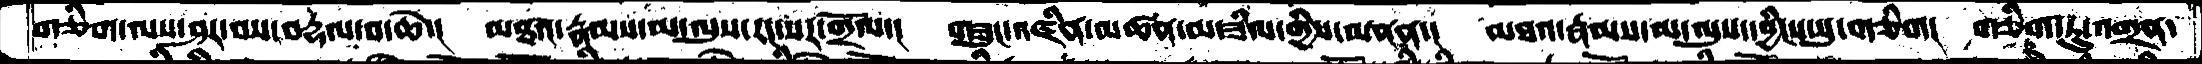གཅིག་ལས་ཤར་བས་བརྡལ་བ་ཆེ་།  མཐའ་རྣམས་མ་ལུས་རང་སར་གྲོལ་།  གཟུང་འཛིན་མཚན་མ་ཟིལ་གྱིས་མནན་།  མཐའ་རྣམས་མ་ལུས་དབྱིངས་སུ་གཅིག།  གཅིག་ཏུ་འགྲན་
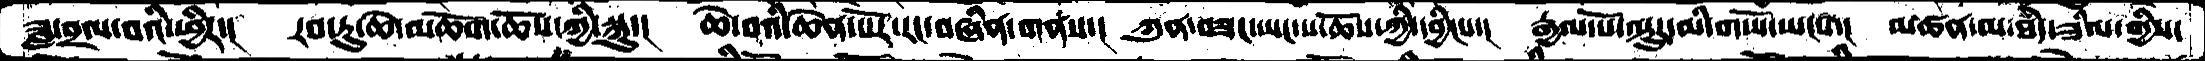ཟླ་བྲལ་བའི་ཕྱིར་།  རབ་ཏུ་ཆེ་མཆོག་ཆོས་ཀྱི་སྐུ་།  ཆེ་བའི་ཆེན་པོར་རང་བཞིན་གནས་།  ཀུན་བཟང་ཡང་པ་ཆོས་ཀྱི་དབྱིངས་།  རྒྱལ་པོ་ལྟུར་མི་གཡོ་ཡངས་།  མཚན་མ་ཐཾད་ཟིལ་གྱིས་
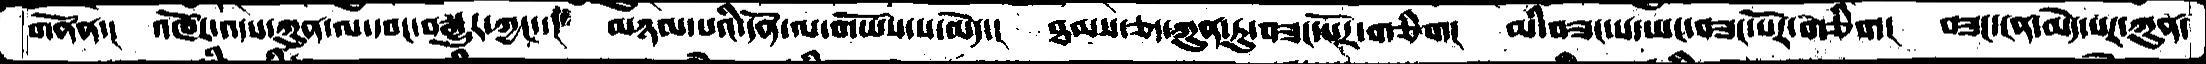གནོན་།  འཁོར་འདས་ཀུན་ལ་དབང་བསྒྱུར་ཀྱང་་།   མཉམ་པའི་དོན་ལ་གཡོས་པ་མེད་།  ཐམས་ཅད་ཀུན་ཏུ་བཟང་པོར་གཅིག།  མི་བཟང་ས་ཡང་བཟང་པོར་གཅིག།  བཟང་ངན་མེད་པར་ཀུན་
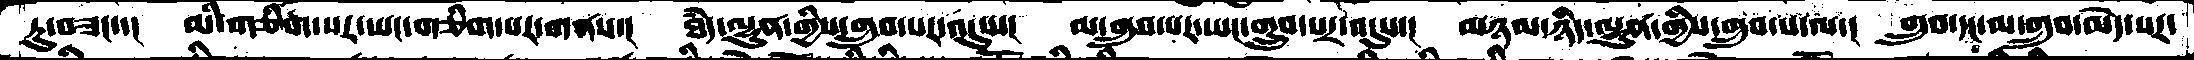ཏུ་བཟང་་།  མི་གཅིག་སར་ཡང་གཅིག་པར་གནས་།  ཐཾད་ལྷུན་གྱིས་གྲུབ་པར་འདུས་།  མ་གྲུབ་པར་ཡང་གྲུབ་པར་འདུས་།  མཉམ་ཉིད་ལྷུན་གྱིས་གྲུབ་པ་ལ་།  གྲུབ་དང་མ་གྲུབ་མེད་པར་
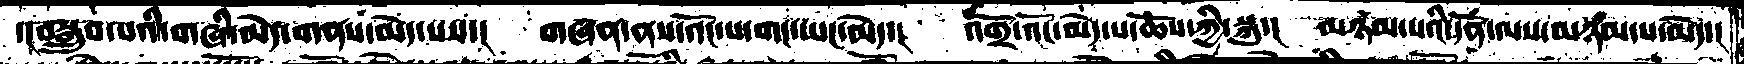་།བསྒྲུབ་པའི་གཞི་མེད་གནས་མེད་པས་།  གཞན་ནས་འོང་པ་གང་ཡང་མེད་།  འགྲོ་འོང་མེད་པ་ཆོས་ཀྱི་སྐུ་།  མཉམ་པའི་དོན་ལས་མཉམ་པ་མེད་།
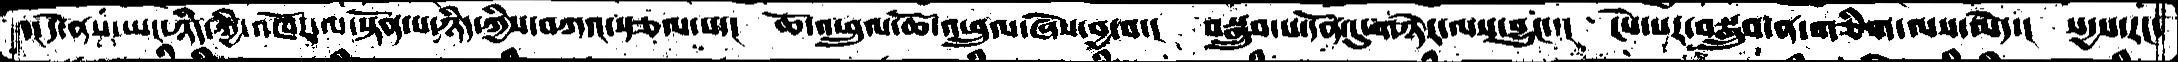་།དེ་ནས་ཡང་ཉིད་ཀྱི་འཁོར་ལ་སྟོན་པ་ཉིད་ཀྱིས་བཀའ་སྩལ་པ་།  ཆོ་འཕྲུལ་ཆོ་འཕྲུལ་ཞེས་བྱ་བ་།  བསྒྲུབ་པ་དོན་དུ་གཉེར་ལས་བྱུང་་།  ངེས་པར་བསྒྲུབ་ན་གཅིག་ལས་མེད་།  སདྱས་རང་
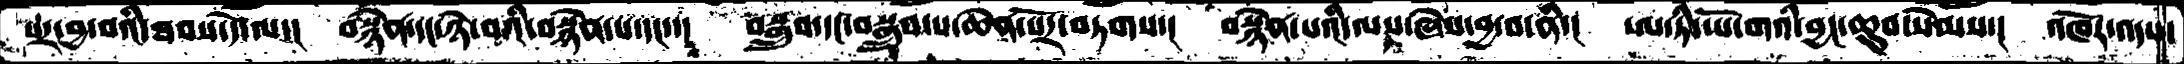པར་བྱ་བའི་ཐབས་དེ་ལ་།  བསྙེན་དང་ཉེ་བའི་བསྙེན་པ་དང་་།  བསྒྲུབ་དང་བསྒྲུབ་པ་ཆེན་པོར་བཏགས་།  བསྙེན་པའི་ལས་ཞེས་བྱ་བ་ནི་།  ཨ་ཏི་ཡོ་གའི་བྱང་ཆུབ་སེམས་།  འཁོར་འདས་
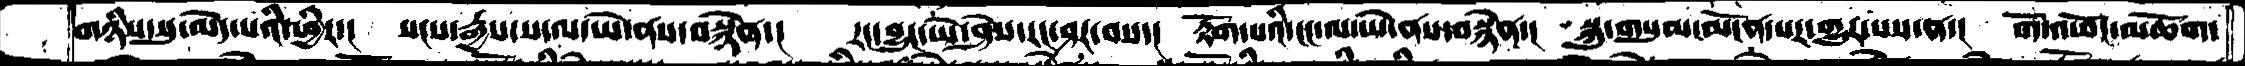གཉིས་སུ་མེད་པའི་ཕྱིར་།  སངས་རྒྱས་ས་ལ་ཡེ་ནས་བསྙེན་།  རང་བྱུང་ཡེ་ཤེས་རང་ཤར་བས་།  རྟོག་པའི་ངང་ལ་ཡེ་ནས་བསྙེན་།  སྐུ་གསུམ་མངོན་པར་གྱུར་པས་ན་།   གོ་འཕོང་མཆོག་
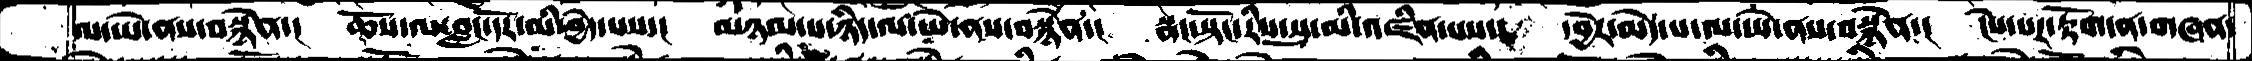ལ་ཡེ་ནས་བསྙེན་།  ཆོས་ལ་བླང་དོར་མི་བྱེད་པས་།  མཉམ་པ་ཉིད་ལ་ཡེ་ནས་བསྙེན་།  སྣང་སྟོང་རིས་སུ་མི་འཛིན་པས་།  དབྱེར་མེད་པ་ལ་ཡེ་ནས་བསྙེན་།  ངེས་པར་རྟོག་ན་གཞན་
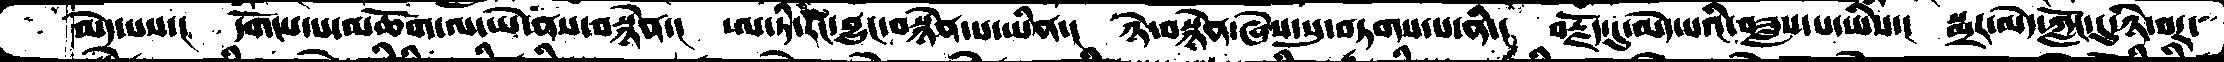མེད་པས་།  དགོངས་པ་མཆོག་ལ་ཡེ་ནས་བསྙེན་།   ཨ་ཏི་རང་བྱུང་བསྙེན་པ་ཡིན་།  ཉེ་བསྙེན་ཞེས་སུ་བཏགས་པ་ནི་།  བརྗོད་དུ་མེད་པའི་བཟླས་པ་ཡིས་།  སྨྲར་མེད་ཀློང་དུ་ཉི་བར་
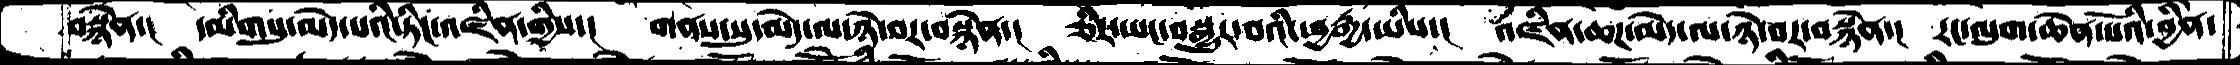བསྙེན་།  དམིགསུ་མེད་པའི་ཏིང་འཛིན་གྱིས་།  གནས་སུ་མེད་ལ་ཉེ་བར་བསྙེན་།  ཅིར་ཡང་བསྒྱུར་བའི་ཕྱརྒྱ་ཡིས་།  འཛིན་ཆཌ་མེད་ལ་ཉེ་བར་བསྙེན་།  རང་ལུག་ཆེན་པོའི་བྱིན་
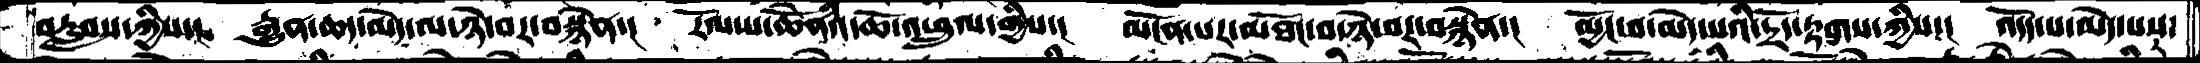བརླབས་ཀྱིས་།  རྒྱུན་ཆད་མེད་ལ་ཉེ་བར་བསྙེན་།  རོལ་པ་ཆེནོའི་ཆོ་འཕྲུལ་གྱིས་།  མངོན་པར་མཐོང་བ་ཉེ་བར་བསྙེན་།  མྱོང་བ་མེད་པའི་དྲོད་རྟགས་ཀྱིས་།  འདོད་པ་མེད་པས་
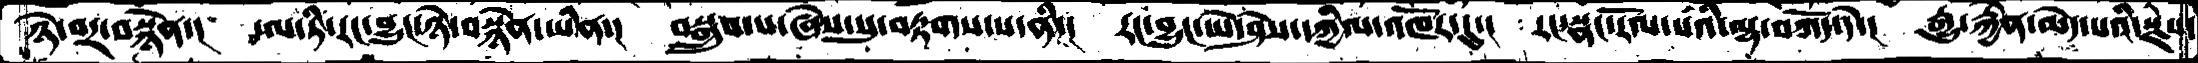ཉེ་བར་བསྙེན་།  ཨ་ཏི་རང་བྱུང་ཉེ་བསྙེན་ཡིན་།  བསྒྲུབ་པ་ཞེས་སུ་བརྟགས་པ་ནི་།  རང་བྱུང་ཡེ་ཤེས་དཀྱིལ་འཁོར་དུ་།  རང་སྣང་རོལ་པའི་ལྷ་བཀོད་དེ་།  རྒྱུ་རྐྱེན་མེད་པའི་རྗེས་
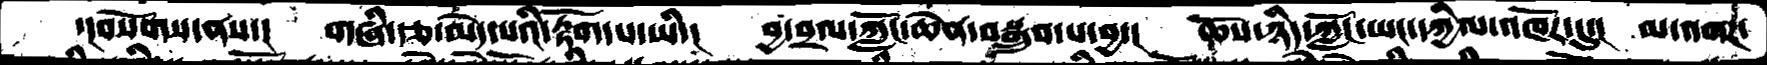་།བསོགས་ནས་།  གཞི་རྩ་མེད་པའི་རྟོག་པ་ཡི་།  བྱ་བྲལ་ཀློང་ཆེན་བསྒྲུབ་པ་བྱ་།  ཆོས་ཉིད་ཀློང་ཡང་དཀྱིལ་འཁོར་དུ་།  མ་འགཌ་
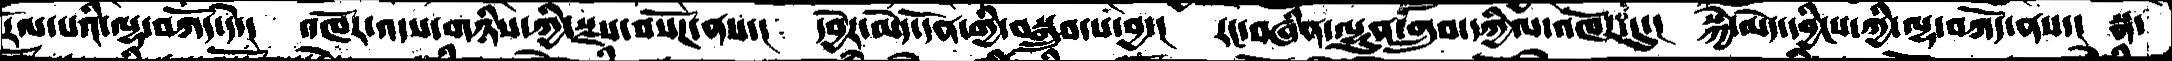རོལ་པའི་ལྷ་བཀོད་དེ་།  འཁོར་འདས་གཉིས་ཀྱི་སྫས་བསོཌ་ནས་།  དབྱེར་མེད་དོན་གྱི་བསྒྲུབ་པ་བྱ་།  རང་བཞིན་ལྷུན་གྲུབ་དཀྱིལ་འཁོར་དུ་།  སྐྱེ་མེད་དབྱིངས་ཀྱི་ལྷ་བཀོད་ནས་།  སྣ་
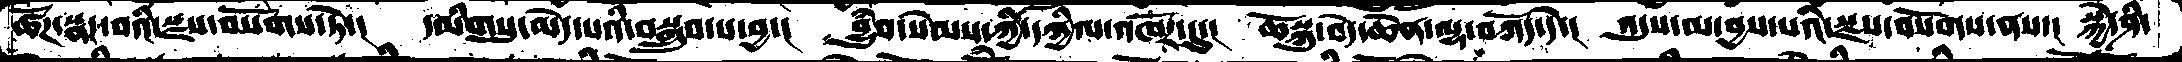ཚོཌ་སྣང་བའི་སྫས་བསོགས་ཏེ་།  དམིགསུ་མེད་པའི་བསྒྲུབ་པ་བྱ་།  བྱུཾབ་སེམས་ཀྱི་དཀྱིལ་འཁོར་དུ་།  ཆོསྐུ་བདེ་ཆེན་ལྷ་བཀོད་དེ་།  འདུས་མ་བྱས་པའི་སྫས་བསོགས་ནས་།  སྐྱེ་ཤི་
